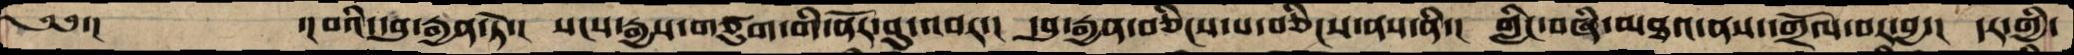༄༅་།   ་།བའི་དབུ་རྒྱན་ཏེ་།  སངས་རྒྱས་གཙུག་གི་ནོར་བུ་འབར་།  དབུ་རྒྱན་བཅིངས་པ་བཅིངས་ནས་ནི་།  གླིང་བཞི་མཐའ་ནས་གྲོལ་བར་བྱ་།  དར་གྱི་
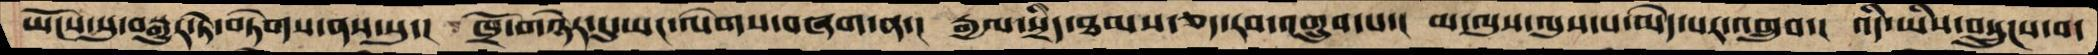ཡོངས་སུ་བསྒྱུར་ཏེ་བཏེགས་ནས་སུ་།  ཁྲོ་གཉེར་དུ་ཡང་ལེགས་བཞག་ན་།  རྒྱལ་སྲིད་ཐམས་ཅད་རབ་འགྲུབ་པ་།  མ་ལུས་ལུས་པ་མེད་པར་འགྲུབ་།  འདི་ཡིས་བསྲུངས་བ་
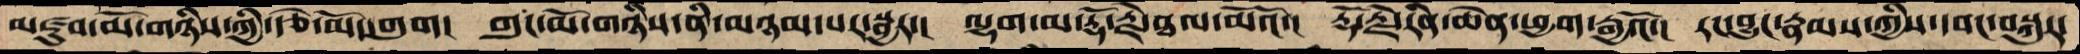མཛུབ་མོ་གཉིས་ཀྱི་རྩེ་མོ་གུག།  གུང་མོ་གཉིས་ནི་མཉམ་པར་སྦྱར་།  ལྷག་མ་རྡོ་རྗེ་ཐལ་མོའོ།  རྡོ་རྗེ་རིན་ཆེན་ཕྱག་རྒྱའོ་།  རང་བྱུང་རྣམས་ཀྱིས་དབང་བསྐུར་
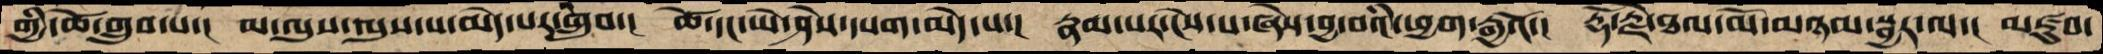གྱི་ཚེ་གྲུབ་པ་།  མ་ལུས་ལུས་པ་མེད་པར་གྲུབ་།  ཚེ་དང་ཡེ་ཤེས་དཔག་མེད་པ་།  རྣམ་པར་ངེས་པ་ཞེས་བྱ་བའི་ཕྱག་རྒྱའོ་།  རྡོ་རྗེ་ཐལ་མོ་མཉམ་སྦྱར་ལ་།  མཛུབ་
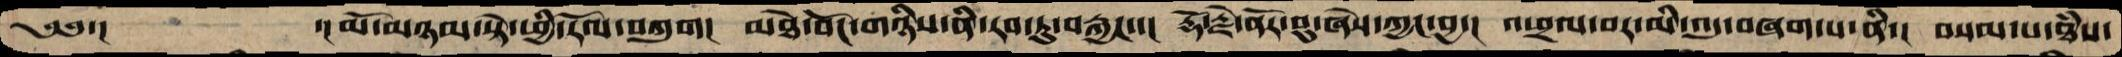༄༅་།   ་།མོ་མཉམ་སྟེ་ཕྱི་རོལ་བཀུག།  མཐེ་བོང་གཉིས་ནི་རབ་ཏུ་བརྐྱང་་།  རྡོ་རྗེ་ནོར་བུ་ཞེས་ཀྱང་བྱ་།  འཕྲལ་བར་མི་འདུ་བཞག་པ་ནི་།  བསམ་པ་ཐཾས་
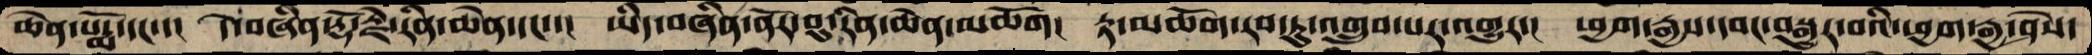ཆེན་པདྨོ་དང་་།  དེ་བཞིན་རྡོ་རྗེ་རིན་ཆེན་དང་་།  ཡིད་བཞིན་ནོར་བུ་རིན་ཆེན་མཆོག།  རྟ་མཆོག་རབ་ཏུ་འགྲུབ་པར་འགྱུར་།  ཕྱག་རྒྱས་དབང་བསྒྱུར་པའི་ཕྱག་རྒྱ་ཤེས་
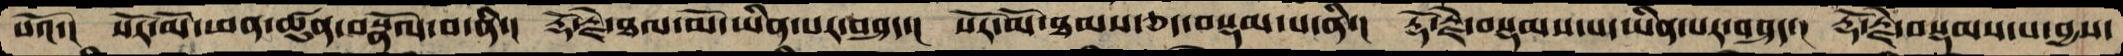པའོ་།  སོར་མོ་ཕན་ཚུན་བསྣོལ་བ་ནི་།  རྡོ་རྗེ་ཐལ་མོ་ཡིན་པར་བཤད་།  སོར་མོ་ཐམས་ཅད་བསྡམ་པ་ནི་།  རྡོ་རྗེ་བསྡམས་པ་ཡིན་པར་བཤད་།   རྡོ་རྗེ་བསྡམས་པ་བྱས་
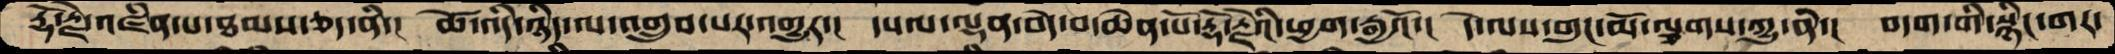རྡོ་རྗེ་འཛིན་པ་ཐམས་ཅད་ནི་།  ཚེ་འདི་ཉིད་ལ་འགྲུབ་པར་འགྱུར་།  དཔལ་ལྡན་བདེ་བ་ཆེན་པོ་རྡོ་རྗེའི་ཕྱག་རྒྱའོ་།  དེ་ལས་གུང་མོ་ལྕགས་ཀྱུ་ནི་། བདག་གི་སྙིང་གར་
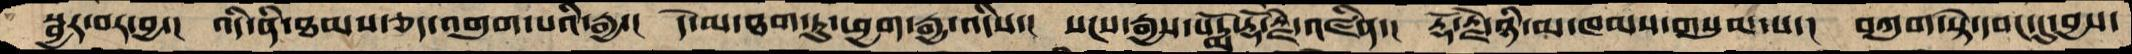སྦྱར་བར་བྱ་།  འདི་ནི་ཐམས་ཅད་འགུག་པའི་རྒྱ་།  དེ་མ་ཐག་ཏུ་ཕྱག་རྒྱ་འདིས་།  སངས་རྒྱས་པདྨོ་རྡོ་རྗེ་འཛིན་།  རྡོ་རྗེ་ཉི་མ་ཁམས་གསུམ་པ་།  བཀུག་སྟེ་དབང་དུ་བྱས
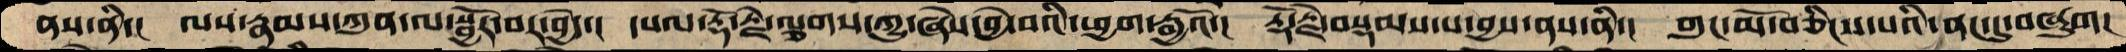ནས་ནི་།  ལས་རྣམས་ཀུན་ལ་སྦྱོར་བར་བྱེད་།  དཔལ་རྡོ་རྗེ་ལྕགས་ཀྱུ་ཞེས་བྱེ་བའི་ཕྱག་རྒྱའོ་།  རྡོ་རྗེ་བསྡམས་པ་བྱས་ནས་ནི་།  གུང་མོ་བཅིངས་པའི་ནང་དུ་བཞུག།
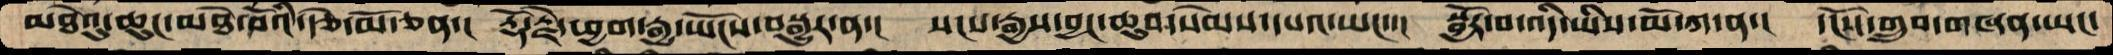མཐེའུ་ཆུང་མཐེ་བོའི་རྩེ་མོ་ཅན་།  རྡོ་རྗེ་ཕྱག་རྒྱཡོངས་བསྒྱུར་ན་།  སངས་རྒྱས་བྱང་ཆུབ་སེམས་དཔའ་ཡང་་།  སྦྱོར་བ་འདི་ཡིས་མོ་ཀ་ན་།  དངོས་གྲུབ་གཞན་ཡང་
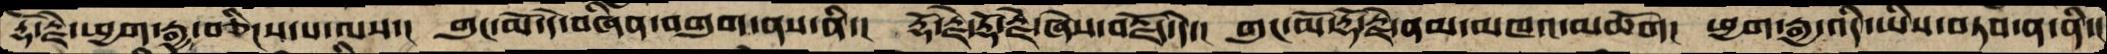རྡོ་རྗེ་ཕྱག་རྒྱ་བཅིངས་པ་ལས་།  གུང་མོ་དེ་བཞིན་འགུག་ནས་ནི་།  རྡོརྗེ་རྡོ་རྗེ་ཞེས་བརྗོད་དེ་།  གུང་མོ་རྡོ་རྗེ་ནམ་མཁའ་མཆོག།  ཕྱག་རྒྱ་འདི་ཡིས་བཏབ་ན་ནི་།
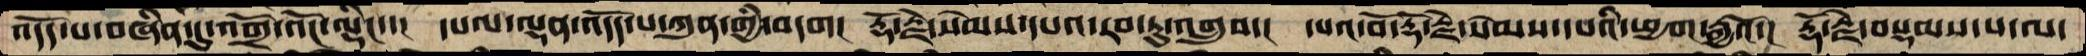འདོད་པ་བཞིན་དུ་འགྲོ་འོང་ལྡིང་་།  དཔལ་ལྡན་འདོད་པ་ཀུན་གྱི་བདག།  རྡོ་རྗེ་སེམསདཔའ་རབ་ཏུ་བགྲུབ་།  དཔའ་བོ་རྡོ་རྗེ་སེམས་དཔའི་ཕྱག་རྒྱའོ་།  རྡོ་རྗེ་བསྡམས་པ་ལ་
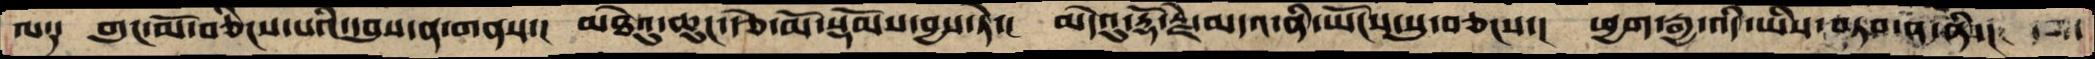ལ༑  གུང་མོ་བཅིངས་པའི་དབུས་ན་གནས་།  མཐེའུ་ཆུང་རྩེ་མོ་སྡོམས་བྱས་ཏེ་།  མདེའུ་རྡོ་རྗེ་མདའ་ནི་ཡོངས་སུ་བཅངས་།  ཕྱག་རྒྱ་འདི་ཡིས་བཏབ་ན་ནི་། དག་
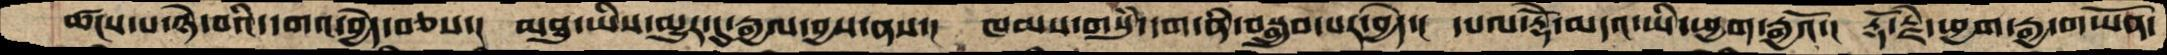ཚངས་པ་ཉེ་བའི་དགའ་བྱེད་བཅས་།  མཐུ་ཡིས་མྱུར་དུ་རྒྱལ་བྱས་ནས་།  ཁམས་གསུཾ་དག་ནི་བསྒྲུབ་པར་བྱེད་།  དཔལ་རྡོེ་མདའ་ཡི་ཕྱག་རྒྱའོ་།  རྡོ་རྗེ་ཕྱག་རྒྱ་གཡོན་
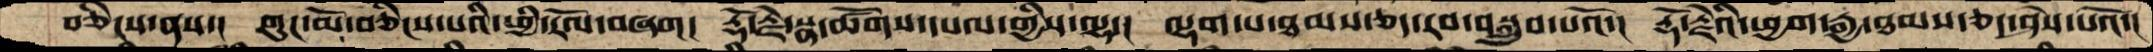བཅིངས་ནས་།  གུང་མོ་བཅིངས་པའི་ཕྱི་རོལ་བཞག།  རྡོ་རྗེ་སྣ་ཚོགས་དཔལ་གྱིས་ལྷ་།  ལྷག་པ་ཐམས་ཅད་རབ་བསྒྲུབ་པའོ་།  རྡོ་རྗེའི་ཕྱག་རྒྱ་ཐམས་ཅད་ཤེས་པའོ་།
